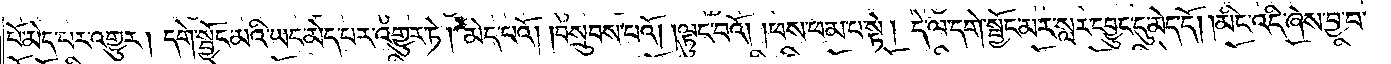པོ་མེད་པར་འགྱུར། དགེ་སྦྱོང་མའི་ཡང་མེད་པར་འགྱུར་ཏེ། མེད་པའོ། །བསྲུབས་པའོ། །ལྟུང་བའོ། །ཕས་ཕམ་པ་སྟེ། དེ་ལ་དགེ་སྦྱོང་མར་སླར་དབྱུང་དུ་མེད་དོ། །མིང་འདི་ཞེས་བྱ་བ་
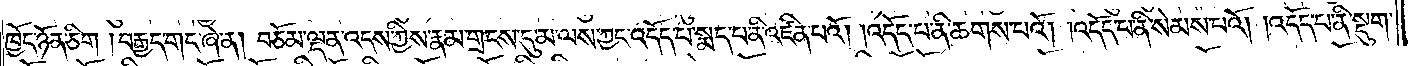ཁྱོད་ཉོན་ཅིག །བརྒྱད་གང་ཞེ་ན། བཅོམ་ལྡན་འདས་ཀྱིས་རྣམ་གྲངས་དུ་མ་ལས་ཀྱང་འདོད་པ་སྨད་པ་ནི་འཛིན་པའོ། །འདོད་པ་ནི་ཆགས་པའོ། །འདོད་པ་ནི་སེམས་པའོ། །འདོད་པ་ནི་སྡུག་
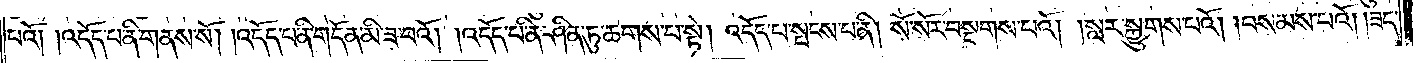པའོ། །འདོད་པ་ནི་གནས་སོ། །འདོད་པ་ནི་གདོན་མི་ཟ་བའོ། །འདོད་པ་ནི་ཤིན་ཏུ་ཆགས་པ་སྟེ། འདོད་པ་སྤངས་པ་ནི། སོ་སོར་བསྔགས་པའོ། །སླར་སྐྱུགས་པའོ། །བསམས་པའོ། །ཟད་
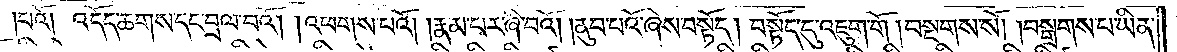པའོ། འདོད་ཆགས་དང་བྲལ་བའོ། །འཕགས་པའོ། །རྣམ་པར་ཞི་བའོ། །ནུབ་པའོ་ཞེས་བསྟོད་།བསྟོད་དུ་འཇུག་གོ །བསྔགས་སོ། །བསྒྲགས་པ་ཡིན་
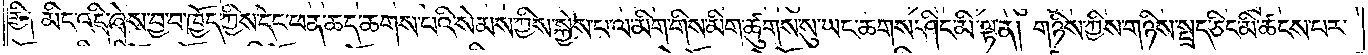གྱི༑ མིང་འདི་ཞེས་བྱ་བ་ཁྱོད་ཀྱིས་དེང་ཕན་ཆད་ཆགས་པའི་སེམས་ཀྱིས་སྐྱེས་པ་ལ་མིག་གིས་མིག་ཚུགས་སུ་ཡང་ཆགས་ཤིང་མི་ལྟ་ན། གཉིས་ཀྱིས་གཉིས་སྤྲད་ཅིང་མི་ཚངས་པར་
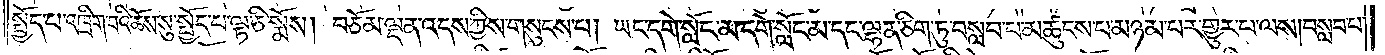སྤྱོད་པ་འཁྲིག་པའི་ཆོས་སུ་སྤྱོད་པ་ལྟ་ཅི་སྨོས། བཅོམ་ལྡན་འདས་ཀྱིས་གསུངས་པ། ཡང་དགེ་སློང་མ་དགེ་སློང་མ་དང་ལྷན་ཅིག་ཏུ་བསླབ་པ་མཚུངས་པ་མཉམ་པར་གྱུར་པ་ལས། བསླབ་པ་
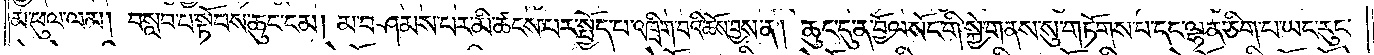མ་ཕུལ་ལམ། བསླབ་པ་སྟོབས་ཆུང་ངམ། མ་བཤམས་པར་མི་ཚངས་པར་སྤྱོད་པ་འཁྲིག་པའི་ཆོས་བྱས་ན། ཆུང་དུ་ན་བྱོལ་སོང་གི་སྐྱེ་གནས་སུ་གཏོགས་པ་དང་ལྷན་ཅིག་པ་ཡང་རུང་
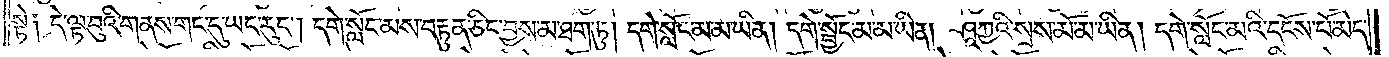སྟེ༑ དེ་ལྟ་བུའི་གནས་གང་དུ་ཡང་རུང༌། དགེ་སློང་མས་བརྟུན་ཅིང་བྱས་མ་ཐག་ཏུ། དགེ་སློང་མ་མ་ཡིན། དགེ་སྦྱོང་མ་མ་ཡིན། ཤཱཀྱའི་སྲས་མོ་མ་ཡིན། དགེ་སློང་མའི་དངོས་པོ་མེད་
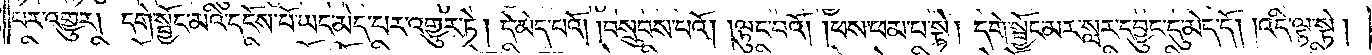པར་འགྱུར། དགེ་སྦྱོང་མའི་དངོས་པོ་ཡང་མེད་པར་འགྱུར་ཏེ། དེ་མེད་པའོ། །བསྲུབས་པའོ། །ལྟུང་བའོ། །ཕས་ཕམ་པ་སྟེ། དགེ་སྦྱོང་མར་སླར་དབྱུང་དུ་མེད་དོ། །འདི་ལྟ་སྟེ།
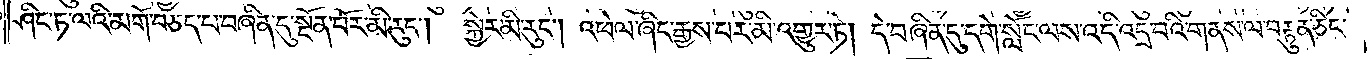ཤིང་ཏ་ལའི་མགོ་བཅད་པ་བཞིན་དུ་སྔོན་པོར་མི་རུང༌། སྐྱེར་མི་རུང༌། འཕེལ་ཞིང་རྒྱས་པར་མི་འགྱུར་ཏེ། དེ་བཞིན་དུ་དགེ་སློང་ལས་འདི་འདྲ་བའི་གནས་ལ་བརྟུན་ཅིང་
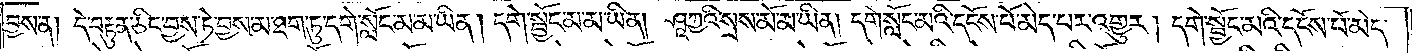བྱས་ན། དེ་བརྟུན་ཅིང་བྱས་ཏེ་བྱས་མ་ཐག་ཏུ་དགེ་སློང་མ་མ་ཡིན། དགེ་སྦྱོང་མ་མ་ཡིན། ཤཱཀྱའི་སྲས་མོ་མ་ཡིན། དགེ་སློང་མའི་དངོས་པོ་མེད་པར་འགྱུར། དགེ་སྦྱོང་མའི་དངོས་པོ་མེད་
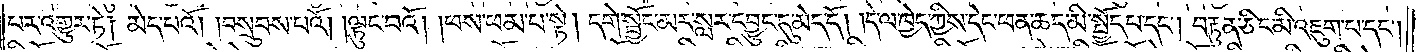པར་འགྱུར་ཏེ། མེད་པའོ། །བསྲུབས་པའོ། །ལྟུང་བའོ། །ཕས་ཕམ་པ་སྟེ། དགེ་སྦྱོང་མར་སླར་དབྱུང་དུ་མེད་དོ། །དེ་ལ་ཁྱེད་ཀྱིས་དེང་ཕན་ཆད་མི་སྤྱོད་པ་དང༌། བརྟུན་ཅིང་མི་འཇུག་པ་དང༌།
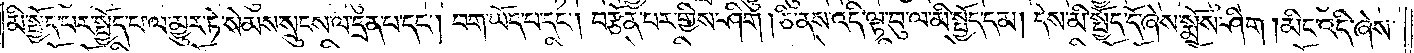མི་སྤྱོད་པར་སྤྱོད་པ་ལ་མྱུར་ཏེ་སེམས་སྲུངས་ལ་དྲན་པ་དང༌། བག་ཡོད་པ་དང༌། བརྩོན་པར་གྱིས་ཤིག །ཅི་ནས་འདི་ལྟ་བུ་ལ་མི་སྤྱོད་དམ། དེས་མི་སྤྱོད་དོ་ཞེས་སྨྲོས་ཤིག །མིང་འདི་ཞེས་
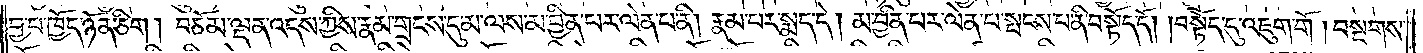བྱ་བ་ཁྱོད་ཉོན་ཅིག །བཅོམ་ལྡན་འདས་ཀྱིས་རྣམ་གྲངས་དུ་མ་ལས་མ་བྱིན་པར་ལེན་པ་ནི། རྣམ་པར་སྨད་དེ། མ་བྱིན་པར་ལེན་པ་སྤངས་པ་ནི་བསྟོད་དོ། །བསྟོད་དུ་འཇུག་གོ །བསྔགས་
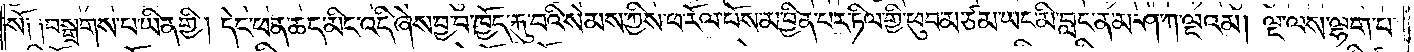སོ༑ ༑བསྒྲགས་པ་ཡིན་གྱི། དེང་ཕན་ཆད་མིང་འདི་ཞེས་བྱ་བ་ཁྱོད་རྐུ་བའི་སེམས་ཀྱིས་ཕ་རོལ་པོས་མ་བྱིན་པར་ཏིལ་གྱི་ཕུབ་མ་ཙམ་ཡང་མི་བླང་ན་མ་ཤ་ཀ་ལྔའམ། ལྔ་ལས་ལྷག་པ་
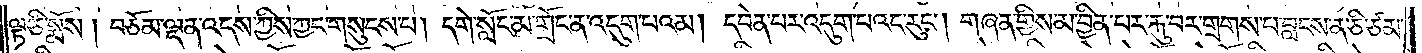ལྟ་ཅི་སྨོས། བཅོམ་ལྡན་འདས་ཀྱིས་ཀྱང་གསུངས་པ། དགེ་སློང་མ་གྲོང་ན་འདུག་པའམ། དབེན་པར་འདུག་པའང་རུང༌། གཞན་གྱིས་མ་བྱིན་པར་རྐུ་བར་གྲགས་པ་བླངས་ན་ཅི་ཙམ་
